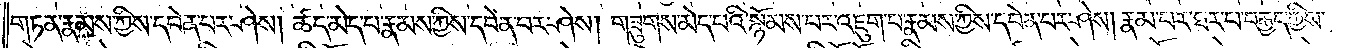གཏན་རྣམས་ཀྱིས་དབེན་པར་ཤེས། ཚད་མེད་པ་རྣམས་ཀྱིས་དབེན་པར་ཤེས། གཟུགས་མེད་པའི་སྙོམས་པར་འཇུག་པ་རྣམས་ཀྱིས་དབེན་པར་ཤེས། རྣམ་པར་ཐར་པ་བརྒྱད་ཀྱིས་
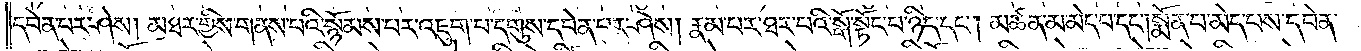དབེན་པར་ཤེས། མཐར་གྱིས་གནས་པའི་སྙོམས་པར་འཇུག་པ་དགུས་དབེན་པར་ཤེས། རྣམ་པར་ཐར་པའི་སྒོ་སྟོང་པ་ཉིད་དང༌། མཚན་མ་མེད་པ་དང༌། སྨོན་པ་མེད་པས་དབེན་
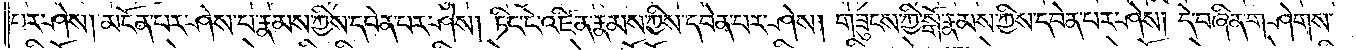པར་ཤེས། མངོན་པར་ཤེས་པ་རྣམས་ཀྱིས་དབེན་པར་ཤེས། ཏིང་ངེ་འཛིན་རྣམས་ཀྱིས་དབེན་པར་ཤེས། གཟུངས་ཀྱི་སྒོ་རྣམས་ཀྱིས་དབེན་པར་ཤེས། དེ་བཞིན་གཤེགས་
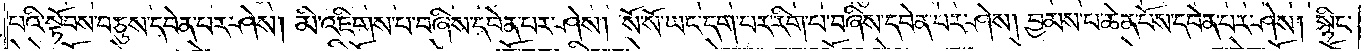པའི་སྟོབས་བཅུས་དབེན་པར་ཤེས། མི་འཇིགས་པ་བཞིས་དབེན་པར་ཤེས། སོ་སོ་ཡང་དག་པར་རིག་པ་བཞིས་དབེན་པར་ཤེས། བྱམས་པ་ཆེན་པོས་དབེན་པར་ཤེས། སྙིང་
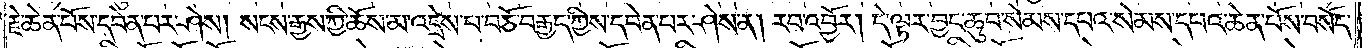རྗེ་ཆེན་པོས་དབེན་པར་ཤེས། སངས་རྒྱས་ཀྱི་ཆོས་མ་འདྲས་པ་བཅོ་བརྒྱད་ཀྱིས་དབེན་པར་ཤེས་ན། རབ་འབྱོར། དེ་ལྟར་བྱང་ཆུབ་སེམས་དཔའ་སེམས་དཔའ་ཆེན་པོས་བསོད་
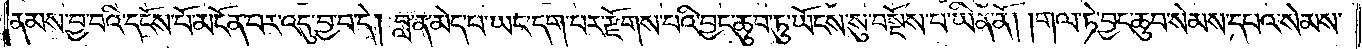ནམས་བྱ་བའི་དངོས་པོ་མངོན་པར་འདུ་བྱ་བ་དེ། བླ་ན་མེད་པ་ཡང་དག་པར་རྫོགས་པའི་བྱང་ཆུབ་ཏུ་ཡོངས་སུ་བསྔོས་པ་ཡིན་ནོ། །གལ་ཏེ་བྱང་ཆུབ་སེམས་དཔའ་སེམས་
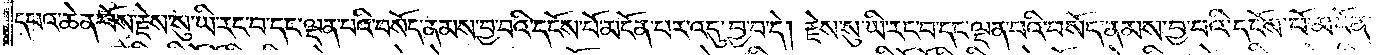དཔའ་ཆེན་པོས་རྗེས་སུ་ཡི་རང་བ་དང་ལྡན་པའི་བསོད་ནམས་བྱ་བའི་དངོས་པོ་མངོན་པར་འདུ་བྱ་བ་དེ། རྗེས་སུ་ཡི་རང་བ་དང་ལྡན་པའི་བསོད་ནམས་བྱ་བའི་དངོས་པོ་མངོན་
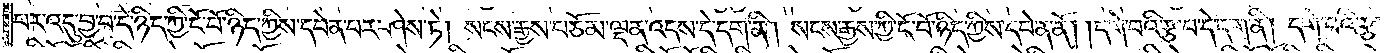པར་འདུ་བྱ་བ་དེ་ཉིད་ཀྱི་ངོ་བོ་ཉིད་ཀྱིས་དབེན་པར་ཤེས་ཏེ། །སངས་རྒྱས་བཅོམ་ལྡན་འདས་དེ་དག་ནི། སངས་རྒྱས་ཀྱི་ངོ་བོ་ཉིད་ཀྱིས་དབེན་ནོ། །དགེ་བའི་རྩ་བ་དེ་དག་ནི། དགེ་བའི་རྩ་
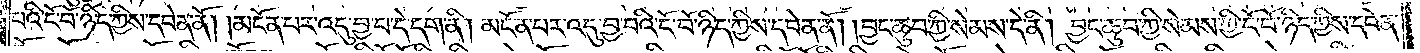པའི་ངོ་བོ་ཉིད་ཀྱིས་དབེན་ནོ། །མངོན་པར་འདུ་བྱ་བ་དེ་དག་ནི། མངོན་པར་འདུ་བྱ་བའི་ངོ་བོ་ཉིད་ཀྱིས་དབེན་ནོ། །བྱང་ཆུབ་ཀྱི་སེམས་དེ་ནི། བྱང་ཆུབ་ཀྱི་སེམས་ཀྱི་ངོ་བོ་ཉིད་ཀྱིས་དབེན་
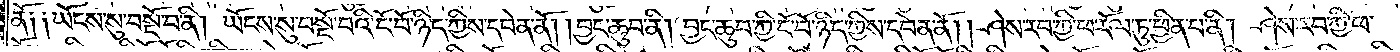ནོ༑ ༑ཡོངས་སུ་བསྔོ་བ་ནི། ཡོངས་སུ་བསྔོ་བའི་ངོ་བོ་ཉིད་ཀྱིས་དབེན་ནོ། །བྱང་ཆུབ་ནི། བྱང་ཆུབ་ཀྱི་ངོ་བོ་ཉིད་ཀྱིས་དབེན་ནོ། །ཤེས་རབ་ཀྱི་ཕ་རོལ་ཏུ་ཕྱིན་པ་ནི། ཤེས་རབ་ཀྱི་ཕ་
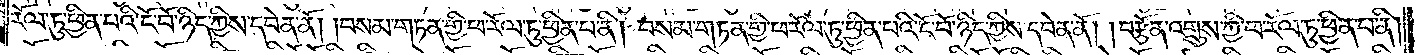རོལ་ཏུ་ཕྱིན་པའི་ངོ་བོ་ཉིད་ཀྱིས་དབེན་ནོ། །བསམ་གཏན་གྱི་ཕ་རོལ་ཏུ་ཕྱིན་པ་ནི། བསམ་གཏན་གྱི་ཕ་རོལ་ཏུ་ཕྱིན་པའི་ངོ་བོ་ཉིད་ཀྱིས་དབེན་ནོ། །བརྩོན་འགྲུས་ཀྱི་ཕ་རོལ་ཏུ་ཕྱིན་པ་ནི།
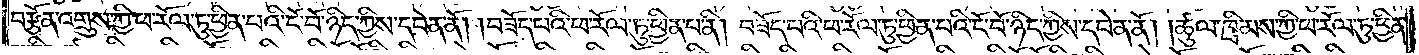བརྩོན་འགྲུས་ཀྱི་ཕ་རོལ་ཏུ་ཕྱིན་པའི་ངོ་བོ་ཉིད་ཀྱིས་དབེན་ནོ། །བཟོད་པའི་ཕ་རོལ་ཏུ་ཕྱིན་པ་ནི། བཟོད་པའི་ཕ་རོལ་ཏུ་ཕྱིན་པའི་ངོ་བོ་ཉིད་ཀྱིས་དབེན་ནོ། །ཚུལ་ཁྲིམས་ཀྱི་ཕ་རོལ་ཏུ་ཕྱིན་
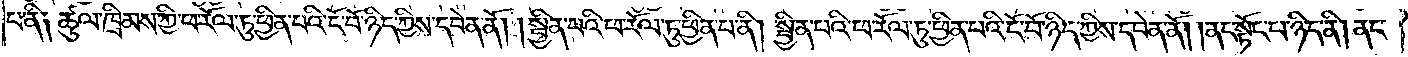པ་ནི༑ ཚུལ་ཁྲིམས་ཀྱི་ཕ་རོལ་ཏུ་ཕྱིན་པའི་ངོ་བོ་ཉིད་ཀྱིས་དབེན་ནོ། །སྦྱིན་པའི་ཕ་རོལ་ཏུ་ཕྱིན་པ་ནི། སྦྱིན་པའི་ཕ་རོལ་ཏུ་ཕྱིན་པའི་ངོ་བོ་ཉིད་ཀྱིས་དབེན་ནོ། །ནང་སྟོང་པ་ཉིད་ནི། ནང་
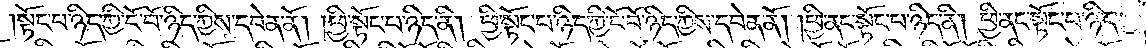སྟོང་པ་ཉིད་ཀྱི་ངོ་བོ་ཉིད་ཀྱིས་དབེན་ནོ། །ཕྱི་སྟོང་པ་ཉིད་ནི། ཕྱི་སྟོང་པ་ཉིད་ཀྱི་ངོ་བོ་ཉིད་ཀྱིས་དབེན་ནོ། །ཕྱི་ནང་སྟོང་པ་ཉིད་ནི། ཕྱི་ནང་སྟོང་པ་ཉིད་ཀྱི་
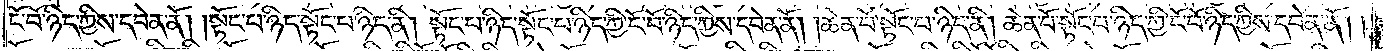ངོ་བོ་ཉིད་ཀྱིས་དབེན་ནོ། །སྟོང་པ་ཉིད་སྟོང་པ་ཉིད་ནི། སྟོང་པ་ཉིད་སྟོང་པ་ཉིད་ཀྱི་ངོ་བོ་ཉིད་ཀྱིས་དབེན་ནོ། །ཆེན་པོ་སྟོང་པ་ཉིད་ནི། ཆེན་པོ་སྟོང་པ་ཉིད་ཀྱི་ངོ་བོ་ཉིད་ཀྱིས་དབེན་ནོ། །
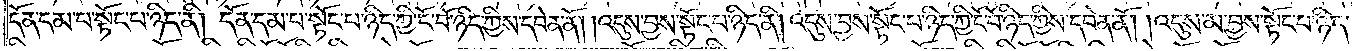དོན་དམ་པ་སྟོང་པ་ཉིད་ནི། དོན་དམ་པ་སྟོང་པ་ཉིད་ཀྱི་ངོ་བོ་ཉིད་ཀྱིས་དབེན་ནོ། །འདུས་བྱས་སྟོང་པ་ཉིད་ནི། འདུས་བྱས་སྟོང་པ་ཉིད་ཀྱི་ངོ་བོ་ཉིད་ཀྱིས་དབེན་ནོ། །འདུས་མ་བྱས་སྟོང་པ་ཉིད་
